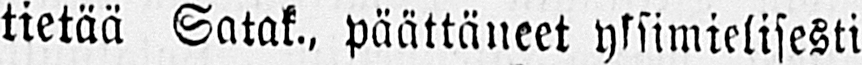tietää Satak., päättäneet yksimielisesti
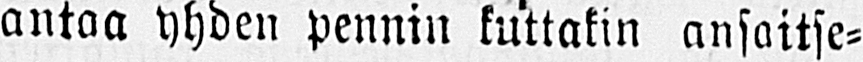antaa yhden pennin kuttakin ansaitse-
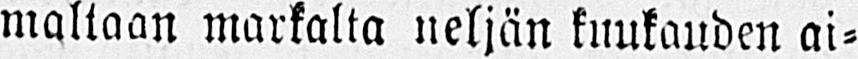maltaan markalta neljän kuukauden ai-
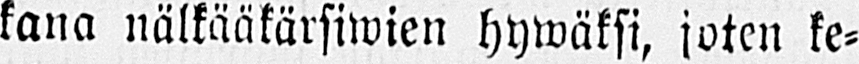kana nälkääkärsiwien hywäksi, joten ke-
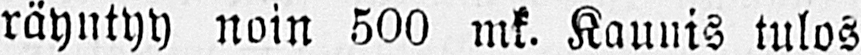räyntyy noin 500 mk. Kaunis tulos
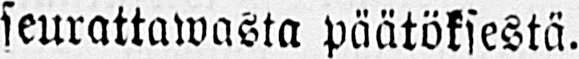seurattawasta päätöksestä.
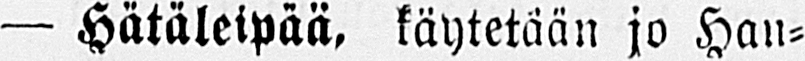— Hätäleipää, käytetään jo Han-
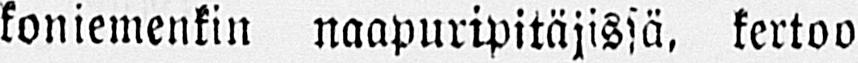koniemenkin naapuripitäjissä, kertoo
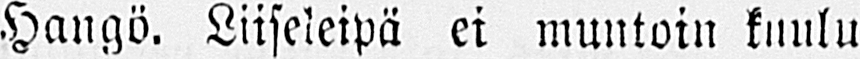Hangö. Liiseleipä ei muutoin kuulu
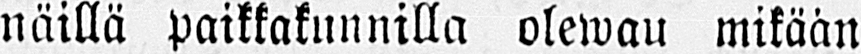näillä paikkakunnilla olewau mikään
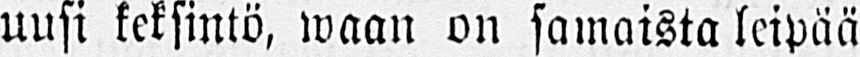uusi keksintö, waan on samaista leipää
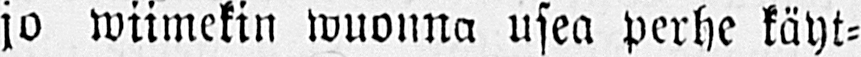jo wiimekin wuonna usea perhe käyt-
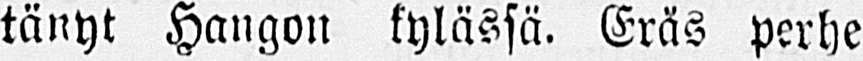tänyt Hangon kylässä. Eräs perhe
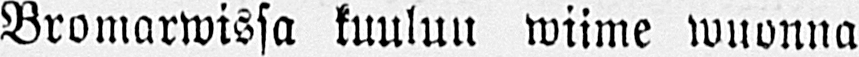Bromarwissa kuuluu wiime wuonna
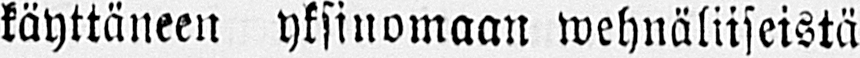käyttäneen yksinomaan wehnäliiseistä
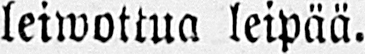leiwottua leipää.
